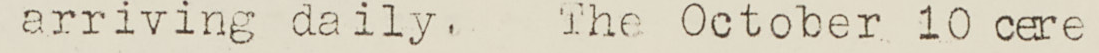arriving daily. The October 10 cere
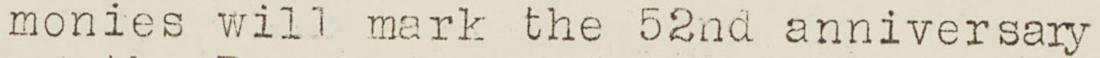monies will mark the 52nd anniversary
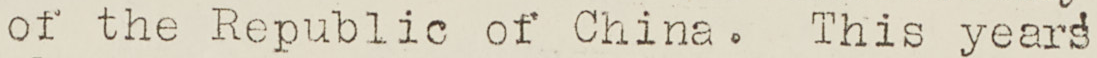of the Republic of China. This years
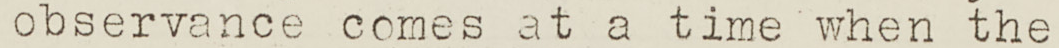observance comes at a time when the
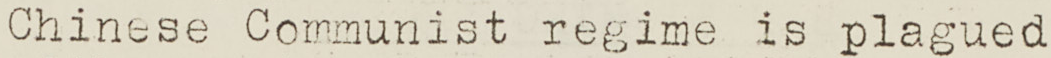Chinese Communist regime is plagued
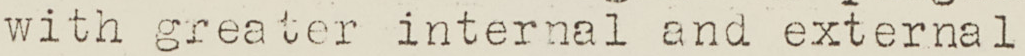with greater internal and external
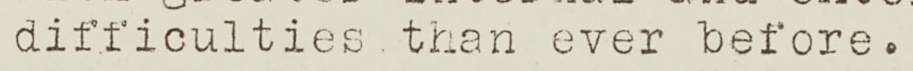difficulties than ever before.
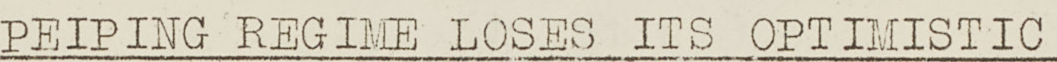PEIPING REGIME LOSES ITS OPTIMISTIC
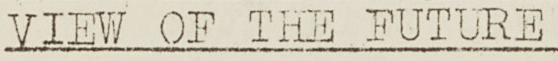VIEW OF THE FUTURE
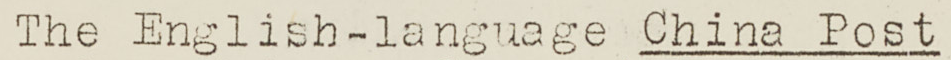English-language China Post
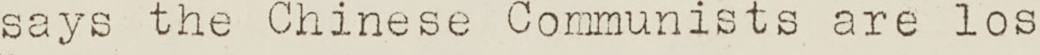says the Chinese Communists are los
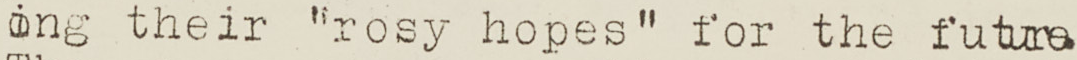ing their "rosy hopes" for the future.
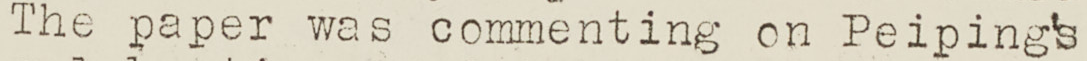The paper was commenting on Peiping's
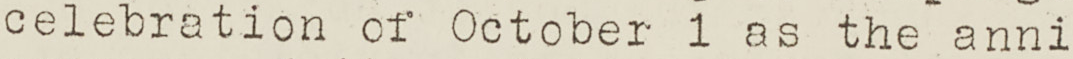celebration of October 1 as the anni
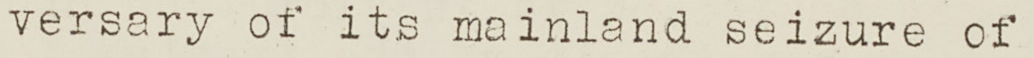versary of its mainland seizure of
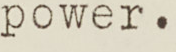power.
